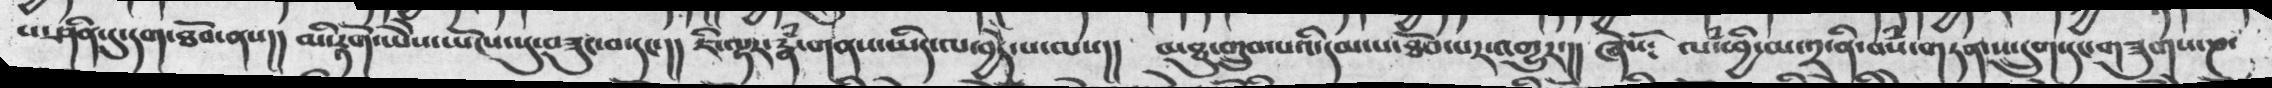པ་ཤིན་དུ་དག་ཐོབ་ནས།།  མི་རྟོག་ཡེེས་ཡོངས་སུ་བཟུང་བ་དང་།། ཇི་ལྟར་རྣཾ་གནས་ཡིད་ལ་བྱེད་པ་ལས།། མཐུ་གྲུབ་པའི་དམ་པ་ཐོབ་པར་འགྱུར་།། ཞེསོ༴  ལཾ་ཕྱི་མ་༢་ནི་བསཾ་གཏན་ས་དྲུག་དང་གཟུགས་ཎ་
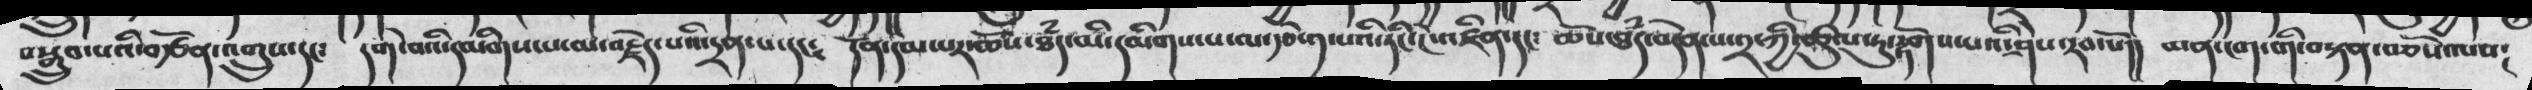བསྒྲུབ་པའི་བརྩོན་འགྲུས་དང༴  དགེ་བའི་དམིགས་པ་མ་བརྗེད་པའི་དྲན་པ་དང༴  དོནདམ་པར་ཆོས་ཐཾད་མི་དམིགས་པ་ལ་རྩེ་༡་པའི་ཏིང་ངེ་འཛིན་དང༴ ཆོས་ཐཾད་བདེན་པ་༢་ཀྱི་ཚུལ་དུ་ཏུ་རྟོགས་པའི་ཤེས་རབ་བོ།།  མན་ངག་གི་བསྟན་བཅོས་ལས༴
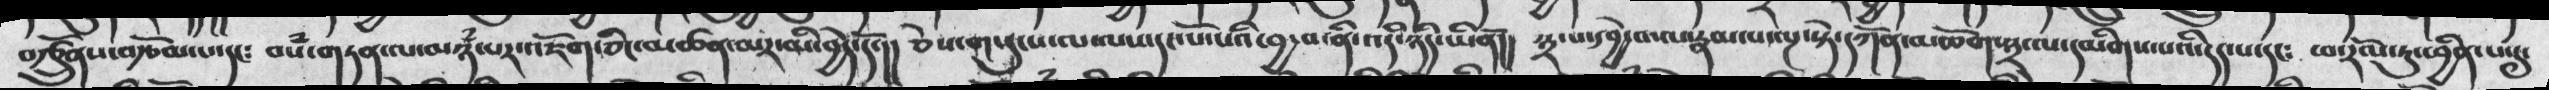བརྩྲོུས་བརྩོམ་པ་དང༴   བསྃ་གཏན་ལ་མཉཾ་པར་འཇོག་ཅིང་མཚན་མར་མི་བྱེད་དོ་།།  ཅེས་གསུངས་ལ་ལས་དང་པོ་པའི་བྱ་བ་ནི་འདི་ཉིད་ཡིནོ།།  ༣་པ་དབྱེ་བ་ལ་རྣམ་པ་ལྔ་སྟེ་དཀོན་མཆོག་༣་ལ་དམིགས་པའི་དད་དང༴  ཕ་རོལ་ཏུ་ཕྱི་པ་དུ་
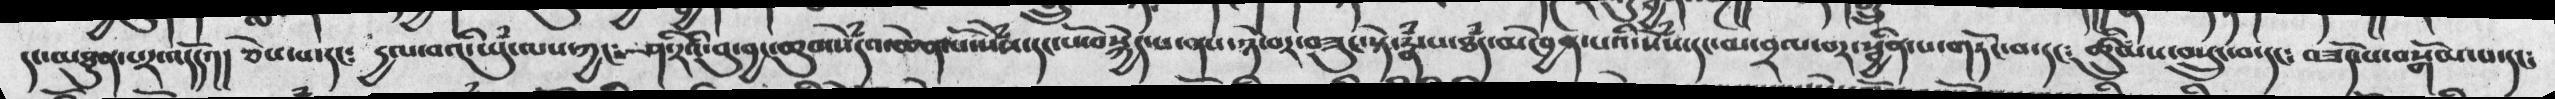དང་མཐུན་པར་འདོད་།།  ཅེས་པ་དང༴  དྱལ་བའི་ཡུཾ་ལས་ཀྱང༴  ཤ་རིའི་བུ་བྱང་ཆུབ་སེཾདའ་ཆེན་པོ་སེཾས་དང་པོ་བསྐྱེད་པ་ནས་ཉེ་བར་བཟུང་སྟེ་རྣཾ་པ་ཐཾད་མཁྱེན་པའི་སེཾས་དང་མ་བྲལ་བར་སྦྱིན་པ་གཏོང་བ་དང༴  ཚྲིུམས་བསྲུང་བ་དང༴  བཟོད་པ་བསྒོམ་པ་དང༴
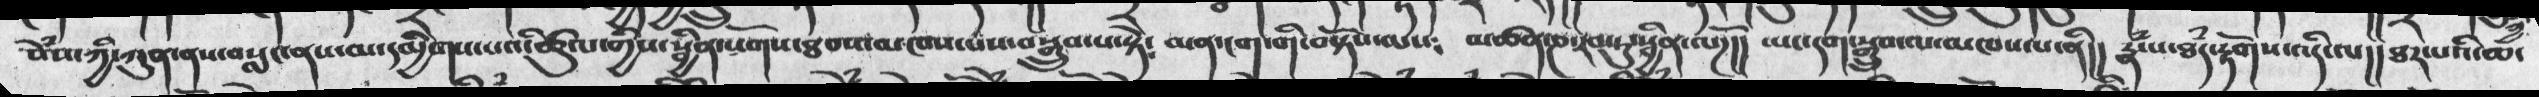སེཾས་ཀྱི་ཀུན་ནས་བསླང་ནས་མ་དམྱིགས་པའི་ཚུལ་གྱིས་སྦྱིན་སོགས་ཐབས་མཁས་པས་བསྒྲུབ་པ་སྟེ༴  མན་ངག་གི་བསྟོས་ལས༴   མཚན་ཎ་རབ་ཏུ་སྦྱིན་ལོཌ།།  ཡང་དག་སྒྲུབ་ལ་མཁས་པ་ནི།།  རྣཾ་པ་ཐཾད་རྟོགས་འདི་ལ།། ཐར་པའོ་ཆ་
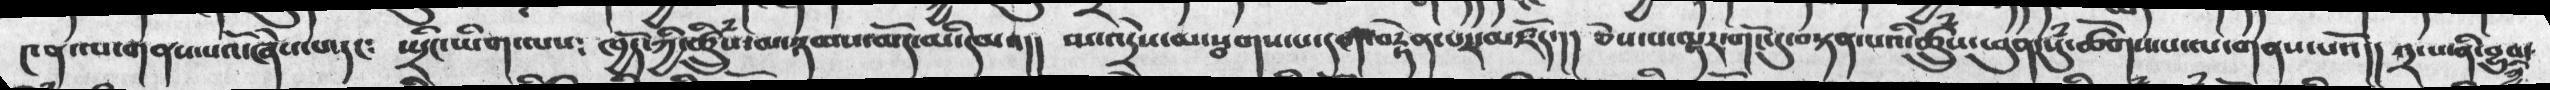༤ན་ལ་གནས་པའོ་ཞེས་པ་དང༴  སྤྲིང་ཡིག་ལས༴  ཁྱོད་ཀྱི་ཚྲིུཾས་མ་ཉམས་མོད་མི་དམའ།།  མ་འདྲེས་མ་སྦགས་པ་དང་བརྟེན་པར་མཛོད་།།  ཅེས་པ་ལྟར་གོང་དུ་བསྟན་པའི་ཚྲིུཾས་ཕུན་སུཾ་ཚོགས་པ་ལ་གནས་པའོ།།  ༢་པ་ནི་བྱུབ་ཀྱི་
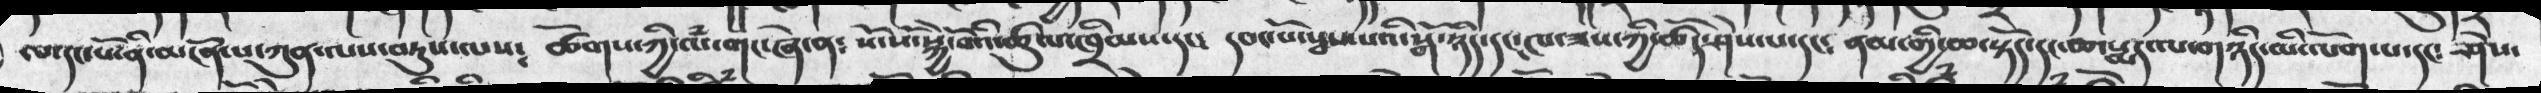ལ་དང་པོ་ནི་མངོན་པ་ཀུན་ལས་བཏུས་ལས༴  ཚོགས་ཀྱི་ལཾ་གང་ཞེ་ན༴   སོ་སོ་སྐྱེ་བོའི་ཚུལ་ཁྲིམས་དང་  དབང་པོ་སྦས་པའི་སྒོ་ཉིད་དང་ཁ་ཟས་ཚོད་ཤེས་པ་དང༴  ནམ་གྱི་ཆ་སྟོད་དང་ཆ་སྨད་ལ་གཉིད་མི་ལོག་པ་དང༴  ཤེས་
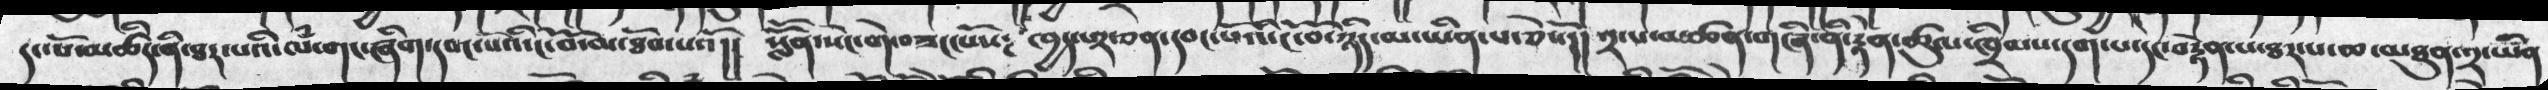དང་པོ་མཚིད་ནི་ཐར་པའི་ལཾ་གང་ཞིག་དབང་པོའི་ངོ་བོ་མ་ཐོབ་པའོ།།  སློོན་སེང་གེ་བཟང་པོས༴ ཁྱད་པར་ཅན་དབང་པོའི་ངོ་བོ་ཉིད་མ་ཡིན་པ་ཅེསོ།།  ༢་པ་མཚན་གཞི་ནི་རྟེན་ཚུལ་ཁྲིམས་དག་པ་དང་བརྟེན་པ་ཐར་པ་ཆ་མཐུན་༢་ཡིན
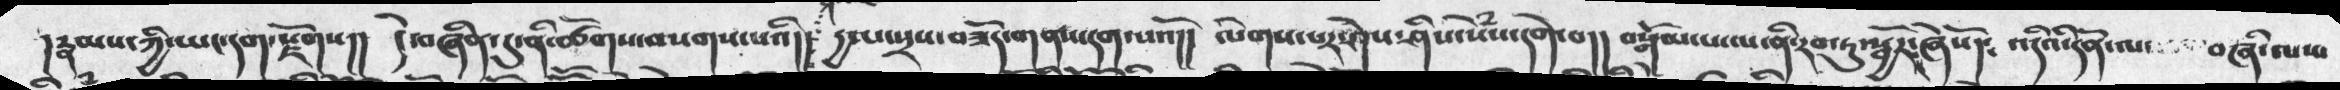།རྣམས་ཀྱི་ཡང་དག་རྫོགས།། དེ་བཞིན་དུ་ནི་ཚོགས་བསགས་པའི།།  དྱལ་སྲས་བཟོད་གནས་དག་པའོ།། ལེགས་པར་ཤེས་ཤིང་སེཾས་དགེ་བ།།  བསྒོམ་པ་ལ་ནི་རབ་ཏུ་སྦྱོར༴ཞེསོ།༴ འདིའི་དོན་ལ་  བཞི་ལས་
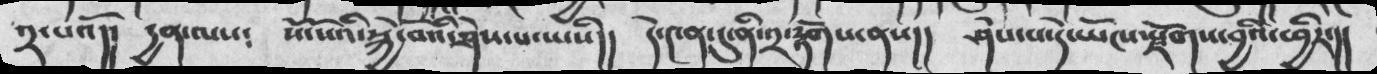༢་པའོ།།  དྱན་ལས༴  སོ་སོའི་སྐྱེ་བོའི་ཤེས་པ་ཡིས།།   དེ་༤ན་དུ་ནི་༢་རྟོགས་ནས།།  ཤེས་པ་དེ་ཡོངས་རྫོགས་བྱའི་ཕྱིར་།།
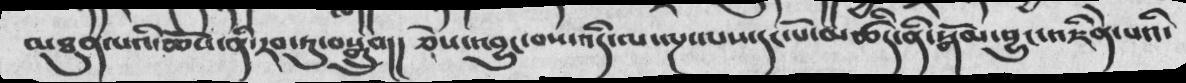མཐུན་པའི་ཆོས་རབ་ཏུ་བསྒྲུབ།།  ཅེས་འབྱུང་བས་འདི་ལ་ལྔ་ལས་དང་པོ་མཚིད་ནི་སྒོམ་བྱུང་འཇིེན་པའི་
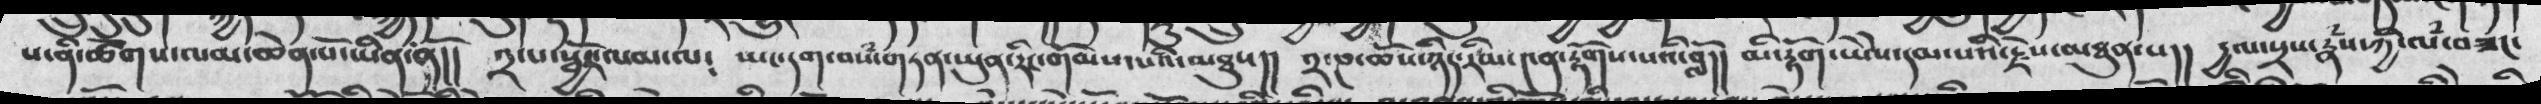པ་ནི་ཚོགས་ལམ་ཆེན་པོ་ཡིན་ནོ།།  ༢་པ་སྦྱོར་ལམ་ལ༴   ཡང་དག་བསཾ་གཏན་ཡུན་རིང་གོམས་པའི་མཐུས།།  ༢་ཎ་ཆོས་ཉིད་རིམ་༤ན་རྟོགས་པའི་བློ།།  མི་རྟོག་ཡེེས་དམ་པའི་རྗེས་མཐུན་པ།།  དྱལ་སྲས་རྣཾས་ཀྱི་ལཾ་བཟང་
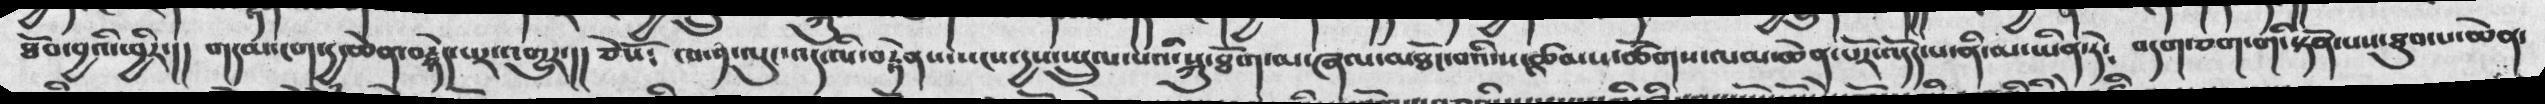ཐོབ་བྱའི་ཕྱིར་།།  གདམ་ངག་དྱ་ཆེན་བརྙེད་པར་འགྱུར་།།  ཅེསོ༴   ཁ་༡་ལུང་འདི་ལ་བརྟེནས་སངས་དྱས་སྤྲུལ་པའི་སྐུ་ཐོག་མ་ཞལ་མཐོང་བའི་ས་འཚམས་ཚོགས་ལམ་ཆེན་པོར་འདོད་པ་ནི་མ་ཡིན་ཏེ༴   བདག་ཅག་གི་སྟོན་པས་ཐུབ་པ་ཆེན་
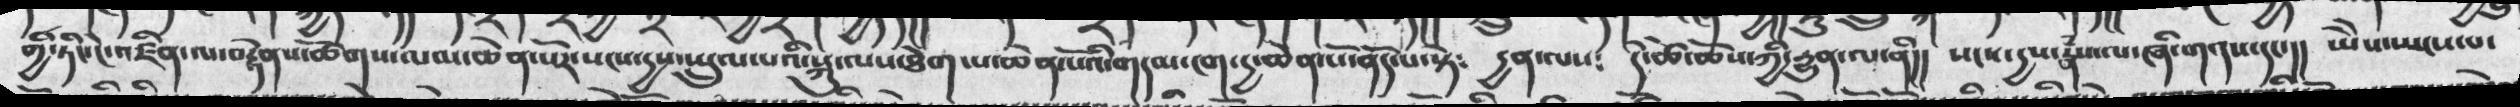གྱི་ཏིང་ངེ་འཛིན་ལ་བརྟེནས་ཚོགས་ལམ་ཆེན་པོར་སངས་དྱས་སྤྲུལ་པའི་སྐུ་ལས་ཐེག་པ་ཆེན་པོའི་གདམ་ངག་དྱ་ཆེན་པོ་ནོད་པ་སྟེ༴  དྱན་ལས༴ དེ་ཚེ་ཆོས་ཀྱི་དྱུན་ལ་ནི།། སངས་དྱས་རྣཾས་ལ་ཞི་གནས་དང་།། ཡེེས་ཡངས་པ་
